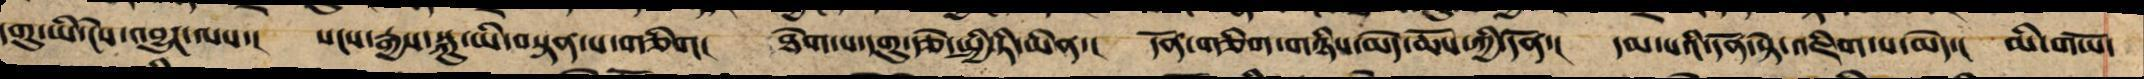དགུ་ཡི་ངེས་འབྱུང་ལས་། སངས་རྒྱས་སྐུ་ཡི་བསྟན་པ་གཅིག། ཐེག་པ་དགུ་རྩེ་སྤྱི་ཏི་ཡིན་། དོན་གཅིག་གཉིས་མེད་ཆོས་ཀྱི་དོན་། དམ་པའི་དོན་སྟེ་འཇིག་པ་མེད་། མི་གཡོ་
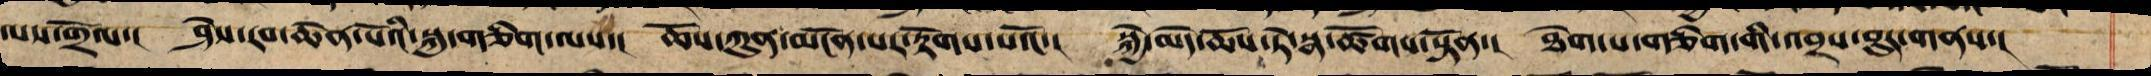ལས་གྲོལ་། ཤེས་རབ་ཆེན་པོའི་སྐུ་གཅིག་ལས་། ཆོས་ཀུན་མངོན་པར་རྟོགས་པའོ་། སྐྱེ་མེད་ཆོས་ཏེ་སྣ་ཚོགས་སྟོན་། ཐེག་པ་གཅིག་གི་འབྲས་བུར་གནས་།
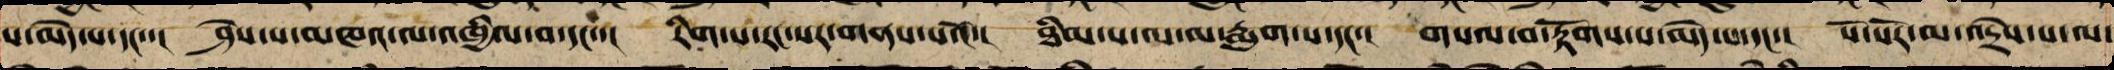པ་མེད་པ་དང་་། ཤེས་པ་མཁའ་ལ་འཁྱིལ་བ་དང་་། རིག་པ་རང་སར་གནས་པའོ་། ཐིམ་པ་ལ་མ་རྨུག་པ་དང་། གསལ་ལ་རྟོགས་པ་མེད་པ་དང་། སོ་སོར་མ་འདྲེས་པ་ལ་
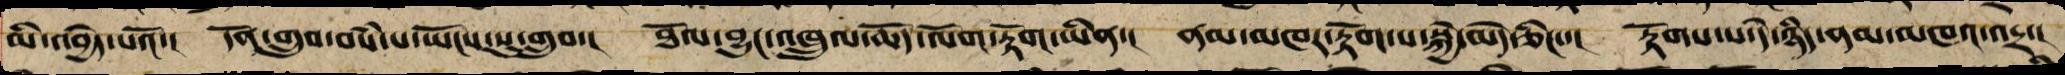མི་འབྱེད་པའོ་། དོན་གྲུབ་བསཾ་པ་ཡོངས་སུ་གྲུབ་། ཐོལ་བྱུང་འཁྲུལ་ཆོད་ལོག་རྟོག་ཡིན་། ནམ་མཁར་རྟོག་པ་སྐྱེ་མེད་ཅིང་་། རྟོགས་པ་དེ་ཉིད་ནམ་མཁའ་འདྲ་།
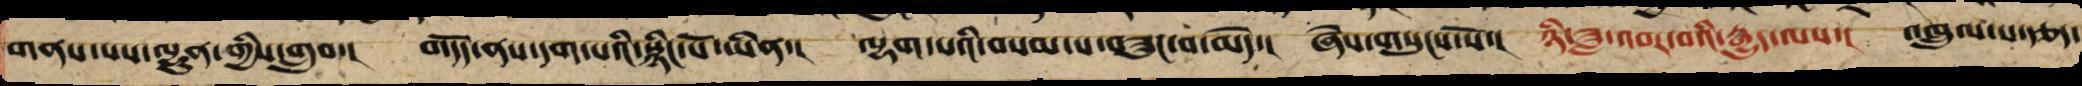གནས་པས་ལྷུན་གྱིས་གྲུབ་། གདོད་ནས་དག་པའི་སྙིང་པོ་ཡིན་། ལྷག་པའི་བསམ་པ་བཟུང་བ་མེད་། ཞེས་གསུངས་སོ་། ཉི་ཟླ་འབར་བའི་རྒྱུད་ལས་། འཁྲུལ་པ་རྩད་
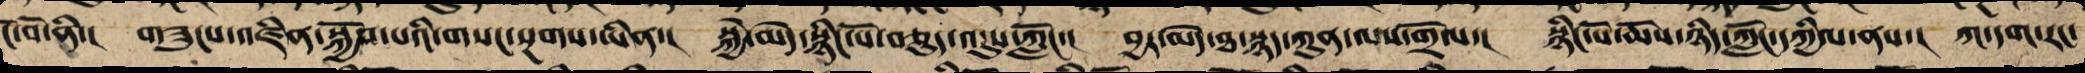ངོ་བོ་ནི་། གཟུངས་འཛིན་སྐྱོབ་པའི་གསང་སྔགས་ཡིན་། སྐྱེ་མེད་སྙིང་པོ་བཅུད་འདུས་ཀློང་། བྱར་མེད་ཐ་སྙད་ཀུན་ལས་གྲོལ་། སྙིང་པོ་ཆོས་ཉིད་ཀློང་དཀྱིལ་ན་། ཀ་དག་རང་
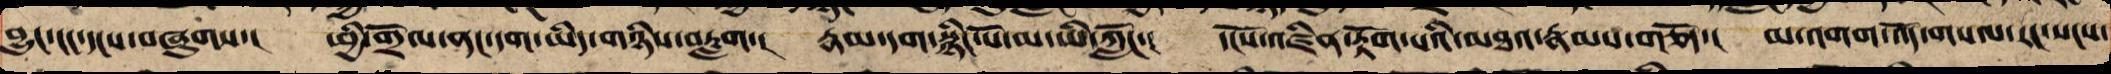བྱུང་ངང་དངས་བཞུགས་། ཕྱི་གྲོལ་ནང་དག་ཡིད་གཉིས་བརླག། རྣམ་དག་སྙིང་པོ་མ་ཡི་ཀློང་། དངོས་འཛིན་རྟོག་པའི་མཐའ་རྣམས་གཅོད་། མ་འགགས་འོད་གསལ་རང་སངས་
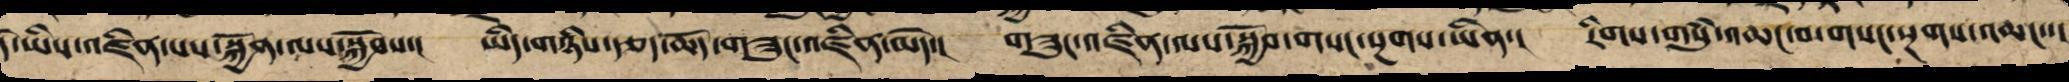དེ་ཡིས་འཛིན་པས་སྐྱོན་ལས་སྐྱོབས་། ཡིད་གཉིས་རྩད་ཆོད་གཟུང་འཛིན་མེད་། གཟུང་འཛིན་ལས་སྐྱོབ་གསང་སྔགས་ཡིན་། རིག་གསུཾ་འཆང་བ་གསང་སྔགས་འཆང་་།
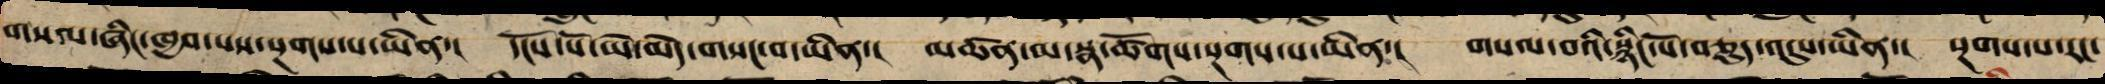གསལ་ཞིང་ཁྱབ་པས་སྔགས་པ་ཡིན་། དངོས་པོ་ཡེ་མེད་གསང་བ་ཡིན་། མཚན་མ་སྣ་ཚོགས་སྔགས་པ་ཡིན་། གསལ་བའི་སྙིང་པོ་བཅུད་འདུས་ཡིན་། སྔགས་པ་རང་
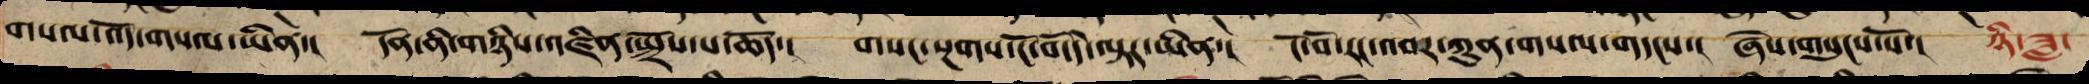གསལ་འོད་གསལ་ཡིན་། དོན་ནི་གཉིས་འཛིན་སྤྲོས་པ་ཆོད་། གསང་སྔགས་ངོ་བོ་དེ་ལྟར་ཡིན་། ངོ་བོ་རང་འབར་ཀུན་གསལ་གདངས་། ཞེས་གསུངས་སོ་། ཉི་ཟླ་
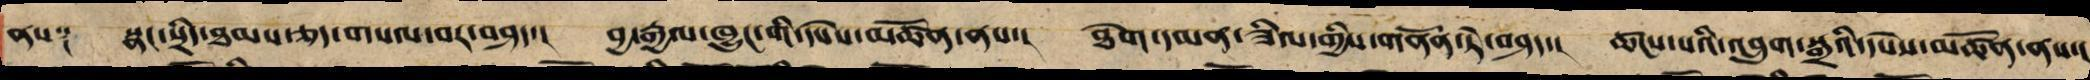ནས༑ སྣང་སྲིད་ཐམས་ཅད་གསལ་བར་བཤད་། བྱ་རྒྱལ་ཁྱུང་གི་དཔེས་མཚོན་ནས་། ཐེག་དམན་ཟིལ་གྱིས་གནོན་ཏེ་བཤད་། ཚངས་པའི་འབྲུག་སྒྲའི་དཔེས་མཚོན་ནས་།
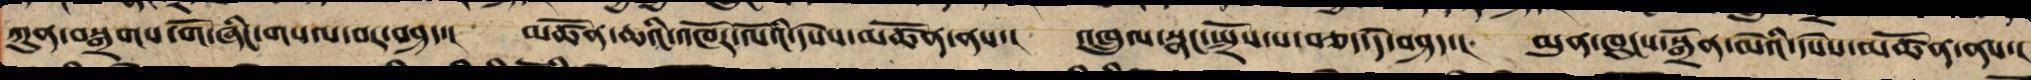ཀུན་བསྒྲགས་གོ་ཞིང་གསལ་བར་བཤད་། མཚོན་ཆའི་འཁོར་ལོའི་དཔེས་མཚོན་ནས་། འཁྲུལ་སྣང་སྤྲོས་པ་བཅད་དེ་བཤད་། མུན་ཁུང་སྒྲོན་མེའི་དཔེས་མཚོན་ནས་།
